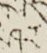ཤར་
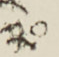༢༠
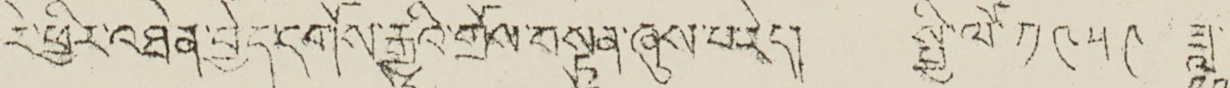རེ་ཕྱིར་འཐེན་བྱེད་དགོས་རྒྱུའི་གྲོས་བསྟུན་ཞུས་པ་རེད། སྤྱི་ལོ་ ༡༩༥༩ ཟླ་
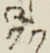༡༡
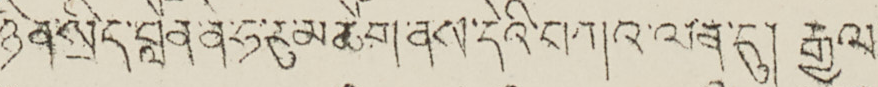ཉིན་སྲིད་བློན་ནེ་ཧ་རུ་མཆོག་ནས་དེའི་བཀའ་ལན་དུ། རྒྱལ་
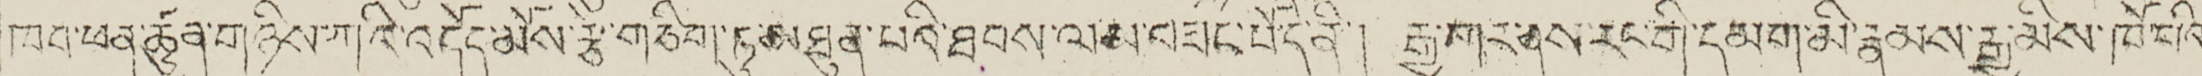ཁབ་ཕན་ཚུན་གཉིས་ཀའི་འདོད་མོས་རྩེ་གཅིག་ཏུ་མཐུན་པའི་ཐབས་ལམ་བཟང་པོ་དེ་ནི། རྒྱ་གར་ནས་རང་གི་དམག་མི་རྣམས་རྒྱ་མིས་ཁོ་པའི་
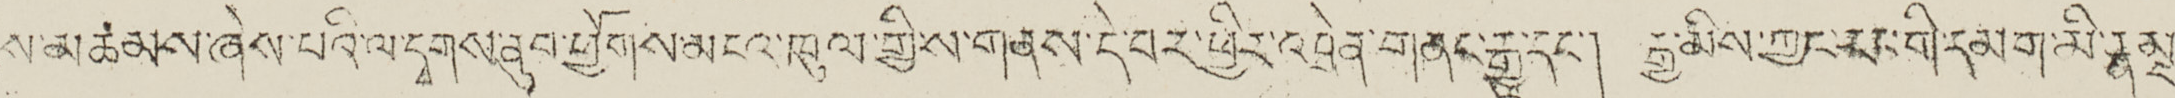ས་མཚམས་ཞེས་པའི་ལ་དྭགས་ནུབ་ཕྱོགས་མངའ་ཁུལ་གྱི་ས་གནས་དེ་བར་ཕྱིར་འཐེན་གནང་རྒྱུ་དང་། རྒྱ་མིས་ཀྱང་རང་གི་དམག་མི་རྣམས་
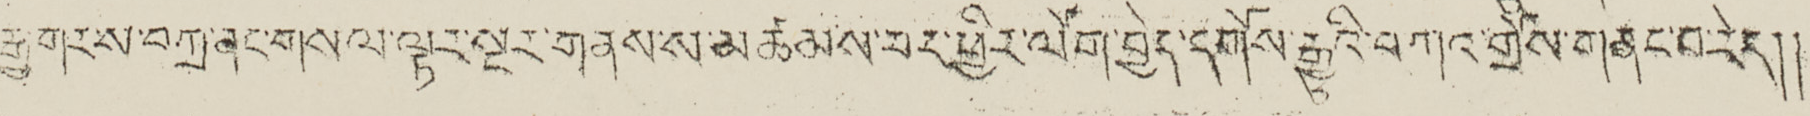རྒྱ་གར་ས་བཀྲ་ནང་གསལ་ལྟར་སྔར་གནས་ས་མཚམས་བར་ཕྱིར་ལོག་བྱེད་དགོས་རྒྱུའི་བཀའ་གྲོས་གནང་བ་རེད།།
